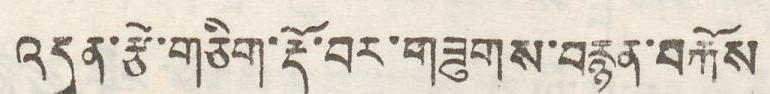འདུན་རྩེ་གཅིག་རྡོ་བར་གཟུགས་བསྙན་བརྐོས
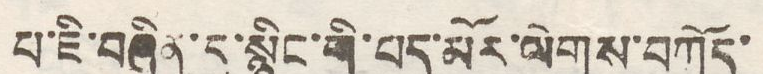པ་ཇི་བཞིན་དུ་སྙིང་གི་པད་མོར་ལེགས་བཀོད་
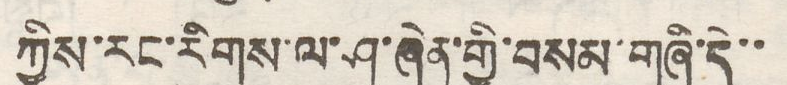ཀྱིས་རང་རིགས་ལ་ཤ་ཞེན་གྱི་བསམ་གཞི་དེ་་
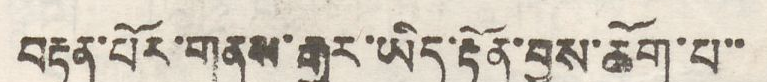བརྟན་པོར་གནས་རྒྱུར་ཡིད་རྟོན་བྱས་ཆོག་པ་་
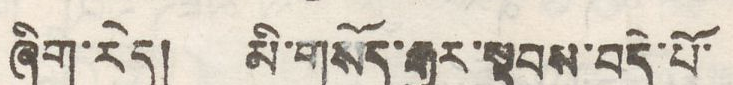ཞིག་རེད། མི་གསོད་རྒྱུར་སྟབས་བདེ་པོ་
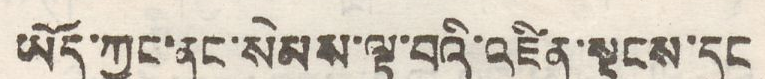ཡོད་ཀྱང་ནང་སེམས་ལྟ་བའི་འཛིན་སྟངས་དང
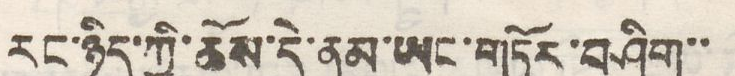རང་ཉིད་ཀྱི་ཆོས་དེ་ནས་ཡང་གཏོར་བཤིག་་
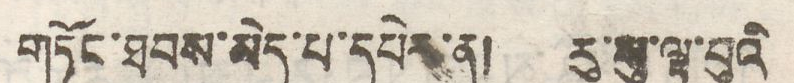གཏོང་ཐབས་མེད་པ་དཔེར་ན། རུ་སུ་ལྟ་བུའི
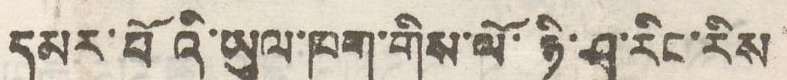དམར་པོའི་ཡུལ་ཁག་གིས་ལོ་ཉི་ཤུ་རིང་རིས
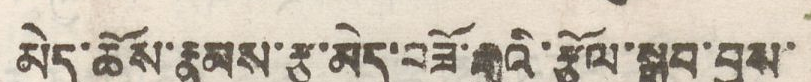མེད་ཆོས་རྣམས་རྩ་མེད་བཟོ་རྒྱུའི་རྩོལ་སྒྲུབ་བྱས་
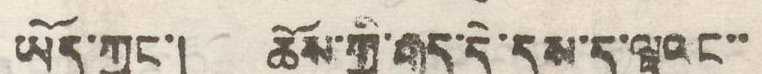ཡོད་ཀྱང་། ཆོས་ཀྱི་རྒྱུད་དེ་དུས་ད་ལྟའང་་
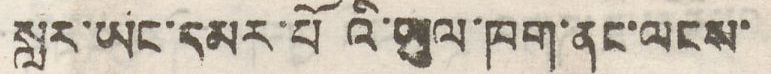སླར་ཡང་དམར་པོའི་ཡུལ་ཁག་ནང་ལངས་
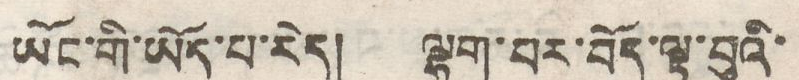ཡོང་གི་ཡོད་པ་རེད། ལྷག་པར་བོད་ལྟ་བུའི་
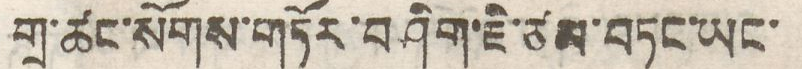གྲ་ཚང་སོགས་གཏོར་བཤིག་ཇི་ཙས་བཏང་ཡང་
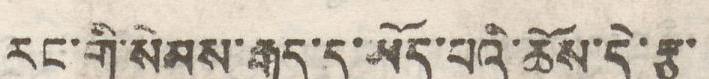རང་གི་སེམས་རྒྱུད་དུ་ཡོད་པའི་ཆོས་དེ་རྩ་
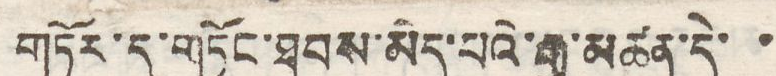གཏོར་དུ་གཏོང་ཐབས་མེད་པའི་རྒྱུ་མཚན་དེ་ ་
